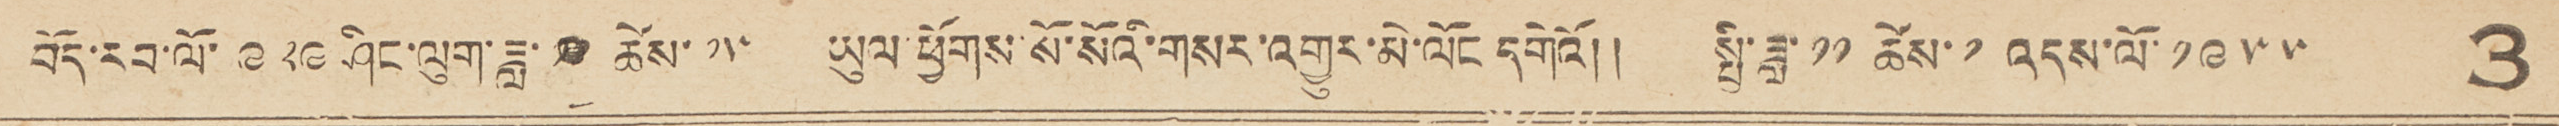བོད་རབ་ལོ་ ༩༢༩ ཤིང་ལུག་ཟླ་ ༡༡ ཚེས་ ༡༥ ཡུལ་ཕྱོགས་སོ་སོའི་གསར་འགྱུར་མེ་ལོང དགེའོ། །     སྤྱི་ཟླ་ ༡༡ ཚེས་ ༡ འདས་ལོ་ ༡༩༥༥    3
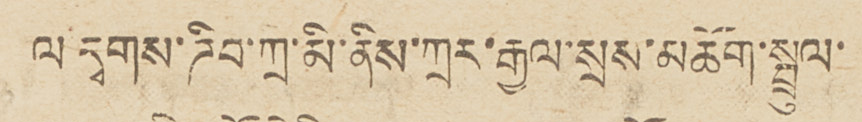ལ དྭགས་ཌིབ་ཀྲ་མི་ནིས་ཀྲར་རྒྱལ་སྲས་མཆོག་སྤྲུལ་
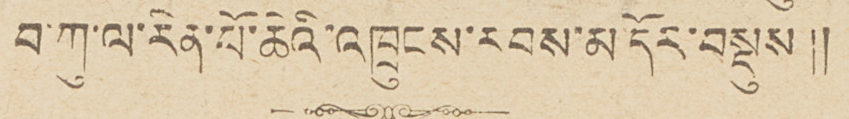བ་ཀུ་ལ་རིན་པོ་ཆེའི་འཁྲུངས་རབས་མདོར་བསྡུས།།
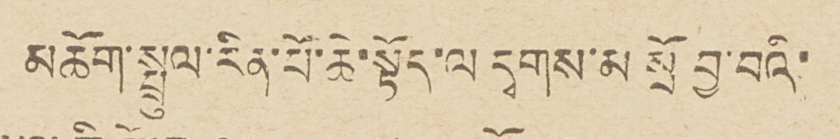མཆོག་སྤྲུལ་རིན་པོ་ཆེ་སྟོད་ལ དྭགས་མ སྲོ བྱ་བའི་
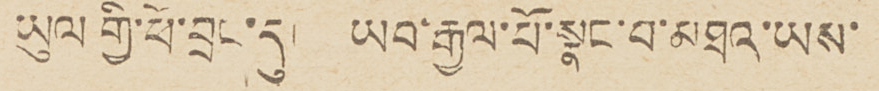ཡུལ གྱི་ཕོ་བྲང་དུ། ཡབ་རྒྱལ་པོ་སྣང་བ་མཐའ་ཡས་
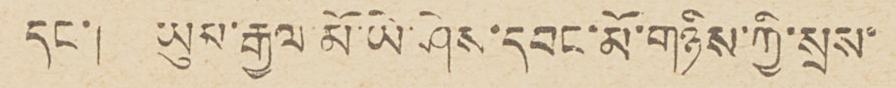དང་། ཡུམ་རྒྱལ་མོ་ཡེ་ཤེས་དབང་མོ་གཉིས་ཀྱི་སྲས་
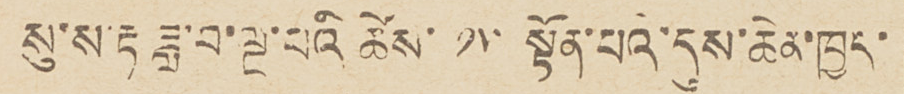སུ་ས་རྟ ཟླ་བ་ལྔ་པའི ཚེས་ ༡༥ སྟོན་པའི་དུས་ཆེན་ཁྱད་
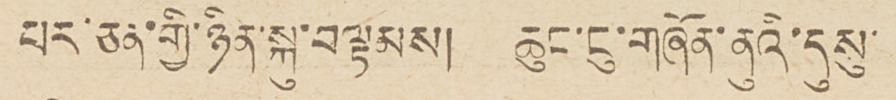པར་ཅན་གྱི་ཉིན་སྐུ་བལྟམས། ཆུང་ངུ་གཞོན་ནུའི་དུསུ་
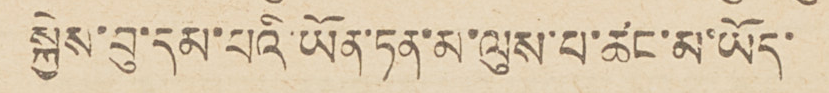སྐྱེས་བུ་དམ་པའི་ཡོན་ཏན་མ་ལུས་པ་ཚང་མ་ཡོད་
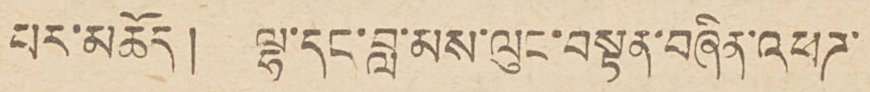པར་མཆོད། ལྷ་དང་བླ་མས་ལུང་བསྟན་བཞིན་འཕཌ་
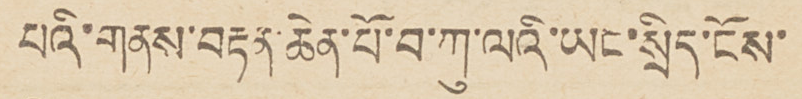པའི་གནས་བརྟན་ཆེན་པོ་བ་ཀུ་ལའི་ཡང་སྲིད་ངོས་
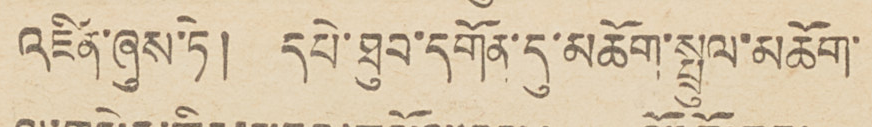འཛིན་ཞུས་ཏེ། དཔེ་ཐུབ་དགོན་དུ་མཆོག་སྤྲུལ་མཆོག་
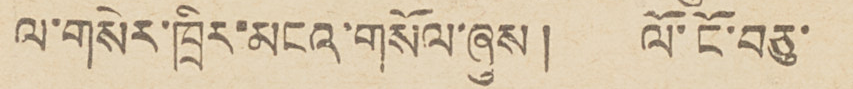ལ་གསེར་ཁྲིར་མངའ་གསོལ་ཞུས། ལོ་ངོ་བཅུ་
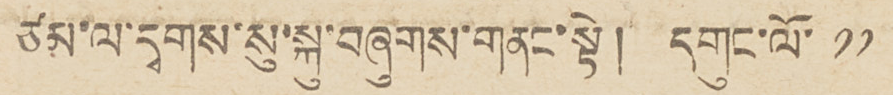ཙམ་ལ་དྭགས་སུ་སྐུ་བཞུགས་གནང་སྟེ། དགུང་ལོ་ ༡༡
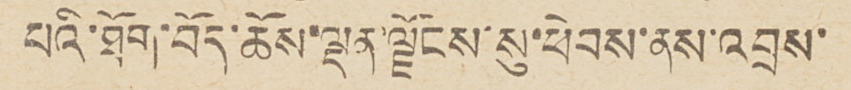པའི་ཐོག་བོད་ཆོས་ལྡན་ལྗོངས་སུ་ཕེབས་ནས་འབྲས་
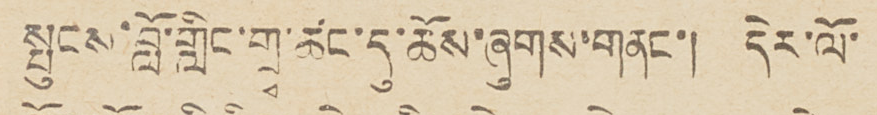སྤུངས་བློ་གླིང་གྲྭ་ཚང་དུ་ཆོས་ཞུགས་གནང་། དེར་ལོ་
